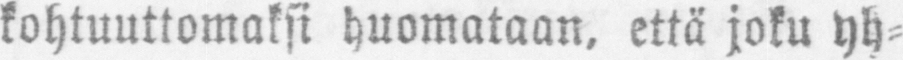kohtuuttomaksi huomataan, että joku yh-
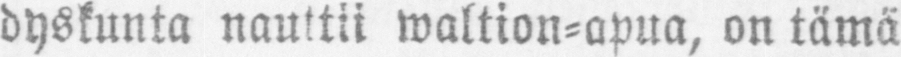dyskunta nauttii waltion-apua, on tämä
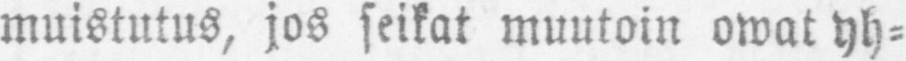muistutus, jos seikat muutoin owat yh-
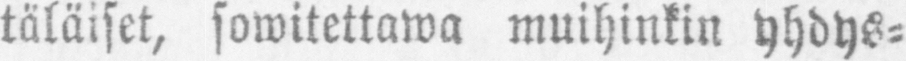täläiset, sowitettawa muihinkin yhdys-
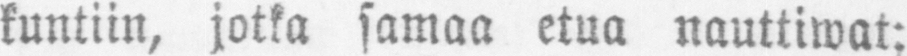kuntiin, jotka samaa etua nauttiwat:
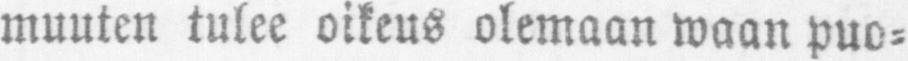muuten tulee oikeus olemaan waan puo-
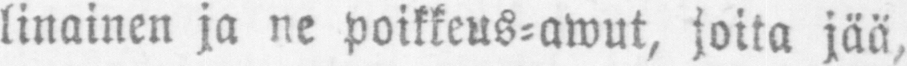linainen ja ne poikkeus-awut, joita jää,
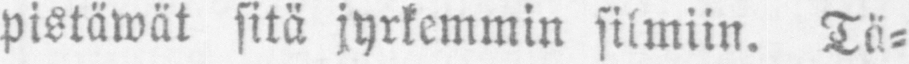pistäwät sitä jyrkemmin silmiin. Tä-
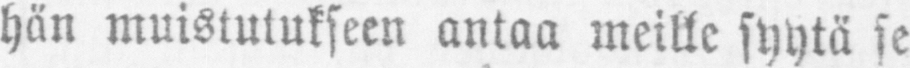hän muistutukseen antaa meille syytä se
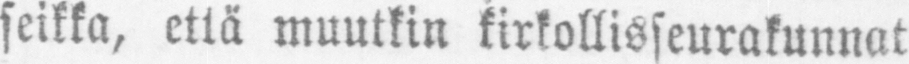seikka, että muutkin kirkollisseurakunnat
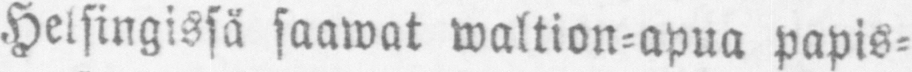Helsingissä saawat waltion-apua papis-
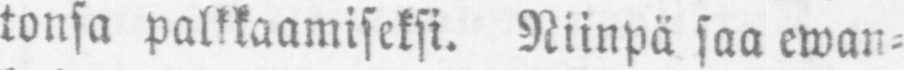tonsa palkkaamiseksi. Niinpä saa ewan-
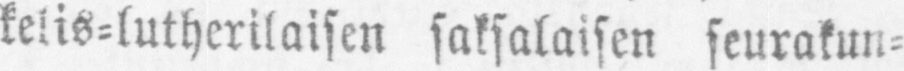kelis-lutherilaisen saksalaisen seurakun-
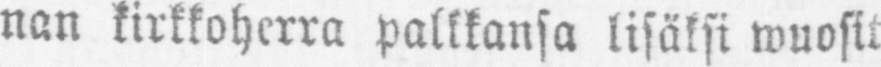nan kirkkoherra palkkansa lisäksi wuosit-
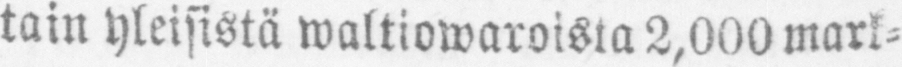tain yleisistä waltiowaroista 2,000 mark-
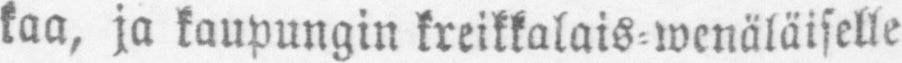kaa, ja kaupungin kreikkalais-wenäläiselle
